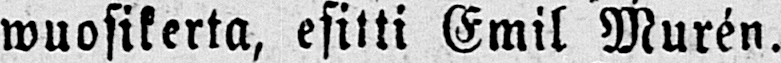wuosikerta, esitti Emil Murén.
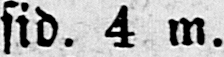sid. 4 m.
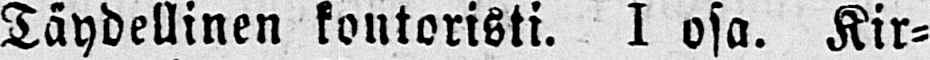Täydellinen kontoristi. I osa. Kir-
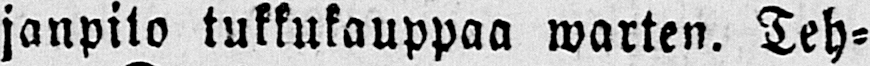janpito tukkukauppaa warten. Teh-
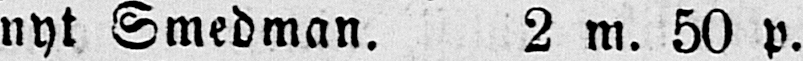nyt Smedman. 2 m. 50 p.
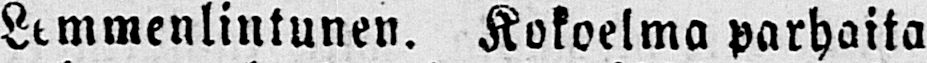Lemmenlintunen. Kokoelma parhaita
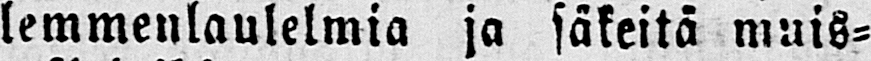lemmenlaulelmia ja säkeitä muis-
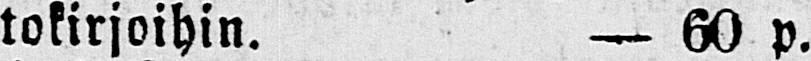tokirjoihin. — 60 p.
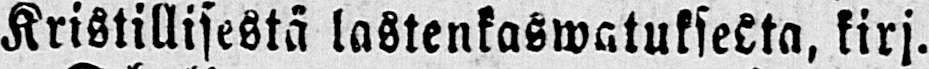Kristillisestä lastenkaswatuksesta, kirj.
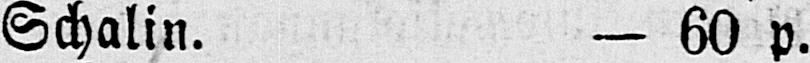Schalin. — 60 p.
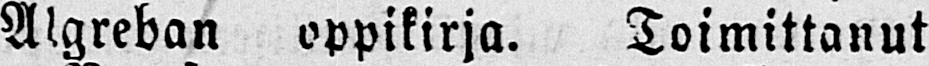Algreban oppikirja. Toimittanut
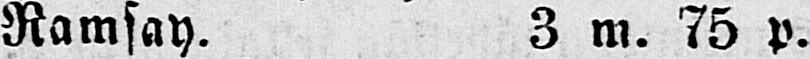Ramsay. 3 m. 75 p.
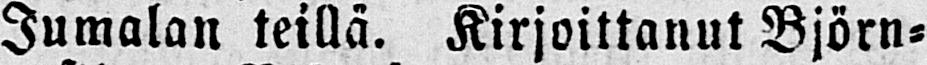Jumalan teillä. Kirjoittanut Björn-
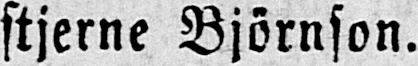stjerne Björnson.
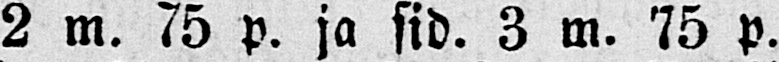2 m. 75 p. ja sid. 3 m. 75 p.
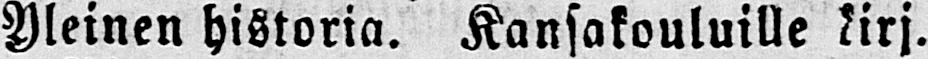Yleinen historia. Kansakouluille kirj.
